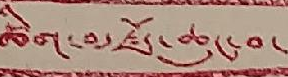ཚིག་མཛོད་ཆུང་བ་
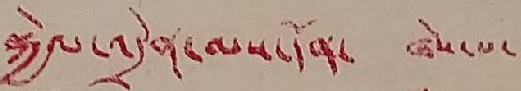སྐྱེལ་འདྲེན་ལས་དོན་ ཞེས་པ་
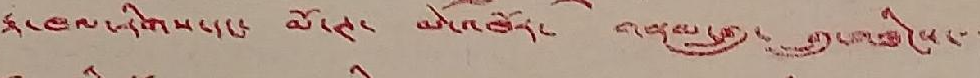རྟ་ཁལ་རིགས་དང་ མོ་ཊ་ མེ་འཁོར་ གནམ་གྲུ་ གྲུ་གཟིངས་་་
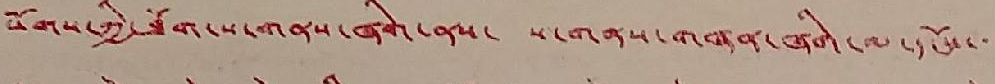སོགས་ཀྱི་ཐོག་ས་གནས་ཞིག་ནས་ ས་གནས་གཞན་ཞིག་ལ་དངོས་་་
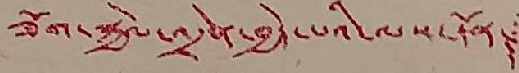ཟོག་སྐྱེལ་འདྲེན་བྱེད་པའི་ལས་དོན་
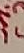དེ་
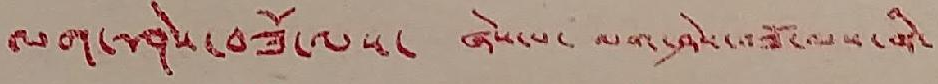ལག་ཤེས་བཟོ་ལས་ ཞེས་པ་ ལག་ཤེས་བཟོ་ལས་ནི་
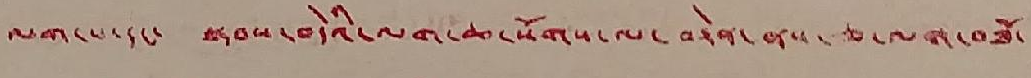ལག་པ་དང་ སྟབས་བདེའི་ལག་ཆ་སོགས་ལ་བརྟེན་ནས་ཅ་ལག་བཟོ་
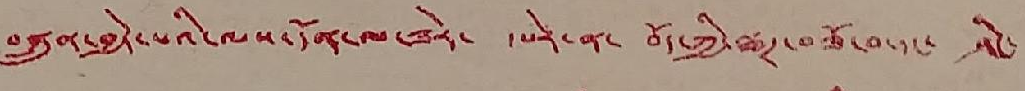བསྐྲུན་བྱེད་པའི་ལས་དོན་ལ་ཟེར་ དཔེར་ན་ བོད་ཀྱི་ལྕཊ་བཟོ་བ་དང་ ཤིང་
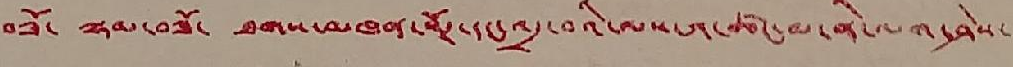བཟོ་ ལྷམ་བཟོ་ ཐགས་མཁན་སོཊ་དང་འདྲ་བའི་ལས་ཀ་ཚང་མ་ནི་ལག་ཤེས་
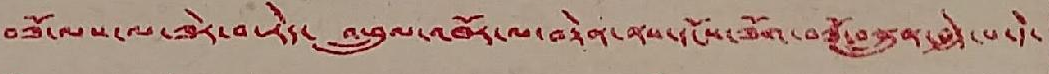བཟོ་ལས་ལ་ཟེར་བ་རེད་ འཕྲུལ་འཁོར་ལ་བརྟེན་ནས་དངོས་ཟོག་བཟོ་བསྐྲུན་བྱེད་པ་དེ་
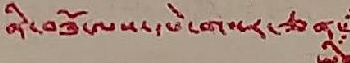ནི་བཟོ་ལས་དཔེ་གསར་ཅན་
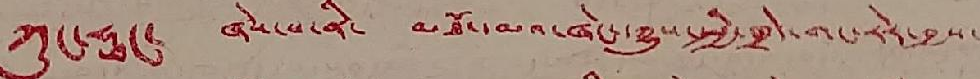ཀུང་ཧྥང་ ཞེས་པ་ནི་ མཐོ་དམའ་ཞེང་དཀྱུས་སྤྱི་ཁྲེ་གང་རེར་བྱས་
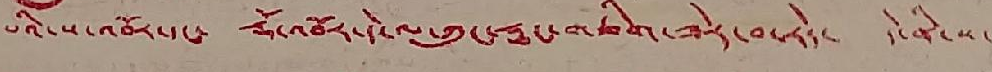པའི་ས་འབོར་དང་ རྡོ་འབོར་དེ་ལ་ཀུང་ཧྥང་གཅིག་ཟེར་བ་རེད་ དེ་ནི་ས་
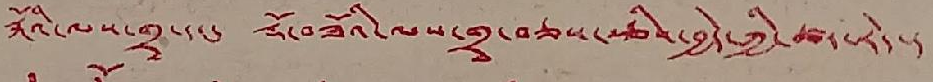རྐོའི་ལས་གྲྭ་དང་ རྡོ་བཟོའི་ལས་གྲྭ་བཅས་རྩིས་བྱེད་ཀྱི་ཚར་རེད་།
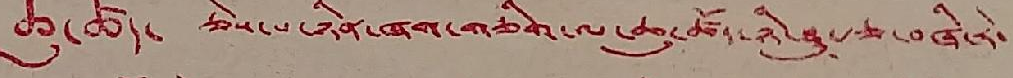ཆུ་ཚོད་ ཅེས་པ་ཉིན་ཞག་གཅིག་ལ་ཆུ་ཚོད་ཉི་ཤུ་རྩ་བཞི་རེ་
